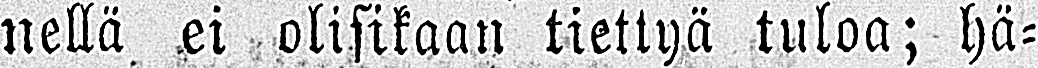nellä ei olisikaan tiettyä tuloa; hä-
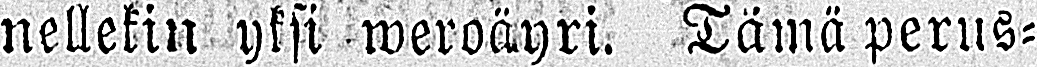nellekin yksi weroäyri. Tämä perus-
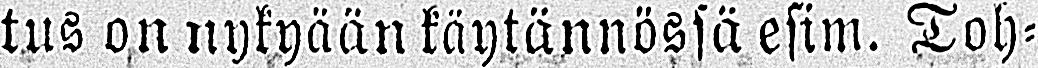tus on nykyään käytännössä esim. Toh-
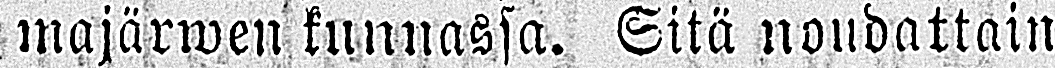majärwen kunnassa. Sitä noudattain
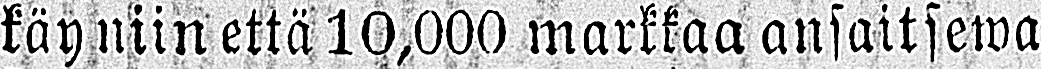käy niin että 10,000 markkaa ansaitsewa
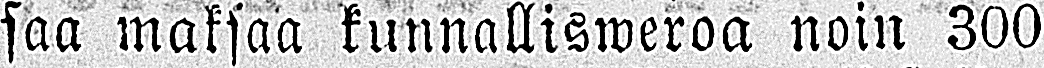saa maksaa kunnallisweroa noin 300
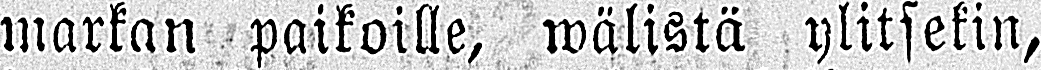markan paikoille, wälistä ylitsekin,
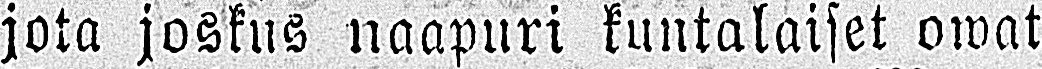jota joskus naapuri kuntalaiset owat
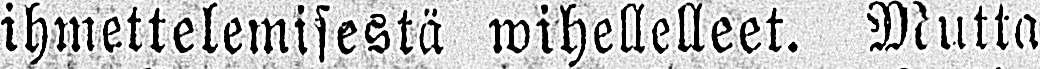ihmettelemisestä wihellelleet. Mutta
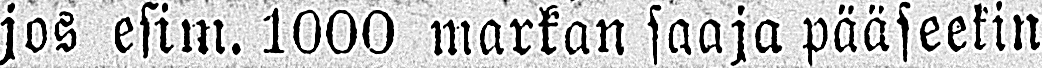jos esim. 1000 markan saaja pääseekin
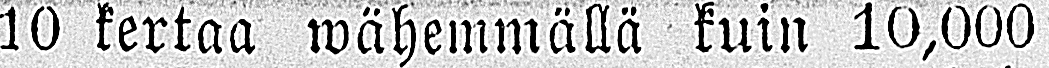10 kertaa wähemmällä kuin 10,000
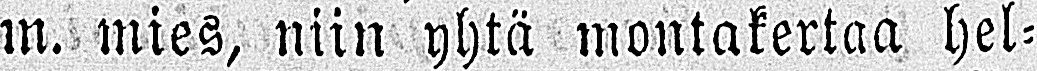m. mies, niin yhtä montakertaa hel-
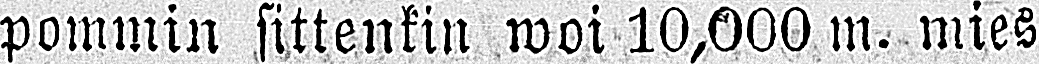pommin sittenkin woi 10,000 m. mies
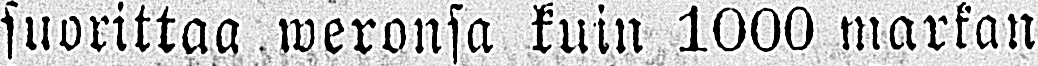suorittaa weronsa kuin 1000 markan
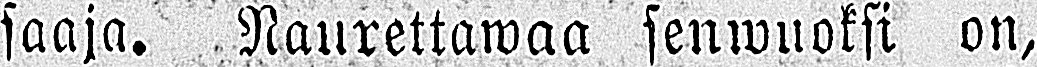saaja. Naurettawaa senwuoksi on,
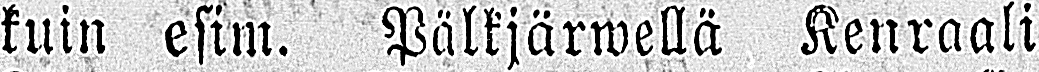kuin esim. Pälkjärwellä Kenraali
